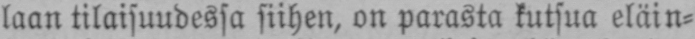laan tilaisuudessa siihen, on parasta kutsua eläin-
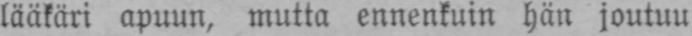lääkäri apuun, mutta ennenkuin hän joutuu
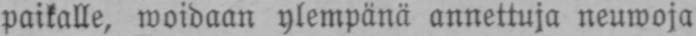paikalle, woidaan ylempänä annettuja neuwoja
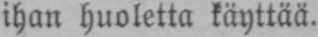ihan huoletta käyttää.
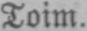Toim.
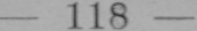118
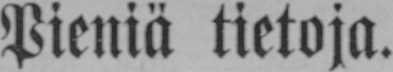Pieniä tietoja.
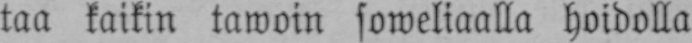taa kaikin tawoin soweliaalla hoidolla
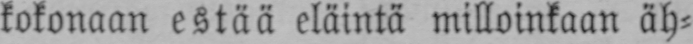kokonaan estää eläintä milloinkaan äh-
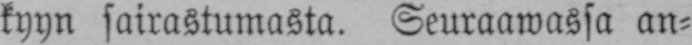kyyn sairastumasta. Seuraamassa an-
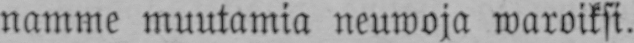namme muutamia neuwoja waroiksi.
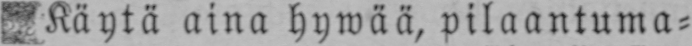Käytä aina hywää, pilaantuma-
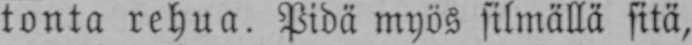tonta rehua. Pidä myös silmällä sitä,
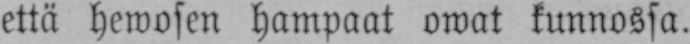että hewosen hampaat owat kunnossa.
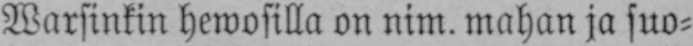Warsinkin hewosilla on nim. mahan ja suo-
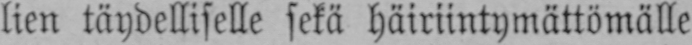lien täydelliselle sekä häiriintymättömälle
